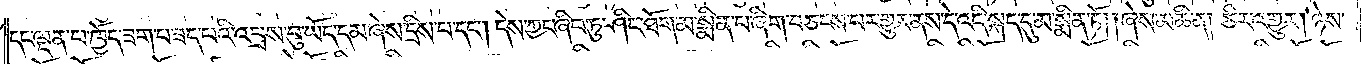དང་ལྡན་པ་ཁྱོད་ཟག་པ་ཟད་པའི་འབྲས་བུ་ཡོད་དམ་ཞེས་དྲིས་པ་དང༌། དེས་ཀྱང་ཞིབ་ཏུ་ཤིང་ཐོག་མ་སྨིན་པ་ཞིག་བཅངས་པར་གྱུར་ནས་དེ་འདི་སྐད་དུ་མ་སྨིན་ཏོ། །ཞེས་མཆི་ན། ཅིར་འགྱུར། ཉེས་
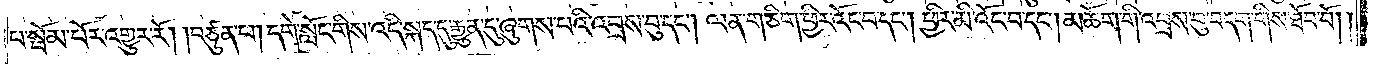པ་སྦོམ་པོར་འགྱུར་རོ། །བཙུན་པ། དགེ་སློང་གིས་འདི་སྐད་དུ་རྒྱུན་དུ་ཞུགས་པའི་འབྲས་བུ་དང༌། ལན་གཅིག་ཕྱིར་འོང་བ་དང༌། ཕྱིར་མི་འོང་བ་དང༌། མཆོག་གི་འབྲས་བུ་བདག་གིས་ཐོབ་བོ། །
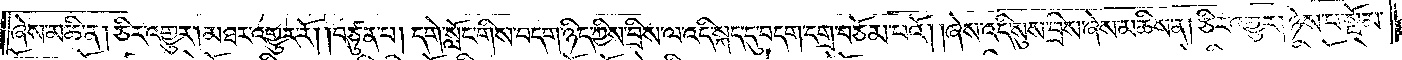ཞེས་མཆི་ན། ཅིར་འགྱུར། མཐར་འགྱུར་རོ། །བཙུན་པ། དགེ་སློང་གིས་བདག་ཉིད་ཀྱིས་བྲིས་ལ་འདི་སྐད་དུ་བདག་དགྲ་བཅོམ་པའོ། །ཞེས་འདི་སུས་བྲིས་ཞེས་མཆིས་ན། ཅིར་འགྱུར། ཉེས་པ་སྦོམ་
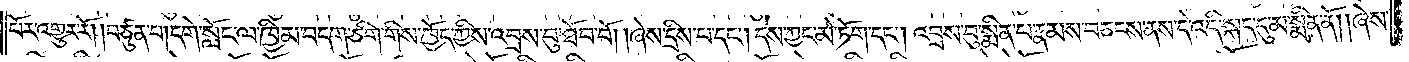པོར་འགྱུར་རོ། །བཙུན་པ། དགེ་སློང་ལ་ཁྱིམ་བདག་ཅིག་གིས་ཁྱོད་ཀྱིས་འབྲས་བུ་ཐོབ་བོ། །ཞེས་དྲིས་པ་དང༌། དེས་ཀྱང་མེ་ཏོག་དང༌། འབྲས་བུ་སྨིན་པ་རྣམས་བཅངས་ནས་དེ་འདི་སྐད་དུ་མ་སྨིན་ནོ། །ཞེས་
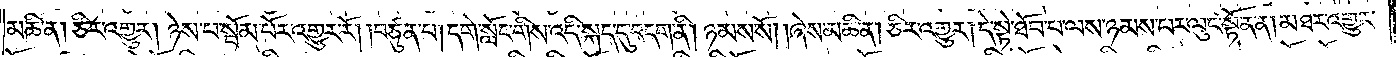མཆི་ན། ཅིར་འགྱུར། ཉེས་པ་སྦོམ་པོར་འགྱུར་རོ། །བཙུན་པ། དགེ་སློང་གིས་འདི་སྐད་དུ་བདག་ནི། ཉམས་སོ། །ཞེས་མཆི་ན། ཅིར་འགྱུར། དེ་སྟེ་ཐོབ་པ་ལས་ཉམས་པར་ལུང་སྟོན་ན། མཐར་འགྱུར་
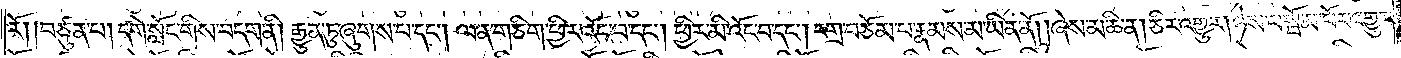རོ། །བཙུན་པ། དགེ་སློང་གིས་བདག་ནི། རྒྱུན་ཏུ་ཞུགས་པ་དང༌། ལན་གཅིག་ཕྱིར་འོང་བ་དང༌། ཕྱིར་མི་འོང་བ་དང༌། དགྲ་བཅོམ་པ་རྣམས་མ་ཡིན་ནོ། །ཞེས་མཆི་ན། ཅིར་འགྱུར། ཉེས་པ་སྦོམ་པོར་འགྱུར་
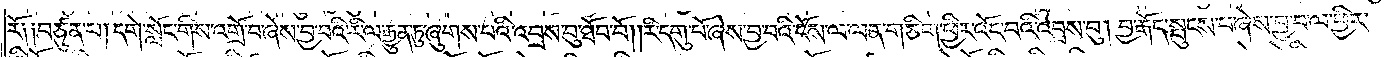རོ༑ ༑བཙུན་པ། དགེ་སློང་གིས་འགྲོ་བ་ཞེས་བྱ་བའི་རི་ལ་རྒྱུན་ཏུ་ཞུགས་པའི་འབྲས་བུ་ཐོབ་བོ། །རི་དགུ་པོ་ཞེས་བྱ་བའི་ངོས་ལ་ལན་གཅིག་ཕྱིར་འོང་བའི་འབྲས་བུ། བྱ་རྒོད་སྤུངས་པ་ཞེས་བྱ་བ་ལ་ཕྱིར་
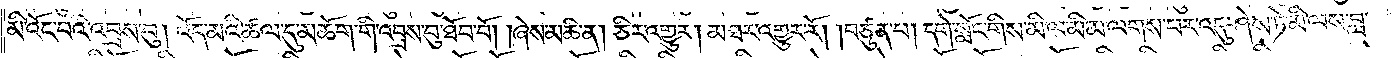མི་འོང་བའི་འབྲས་བུ། འོད་མའི་ཚལ་དུ་མཆོག་གི་འབྲས་བུ་ཐོབ་བོ། །ཞེས་མཆི་ན། ཅིར་འགྱུར། མཐར་འགྱུར་རོ། །བཙུན་པ། དགེ་སློང་གིས་མི་ལ་མི་མ་ལགས་པར་འདུ་ཤེས་ཏེ་མི་ལས་བླ་
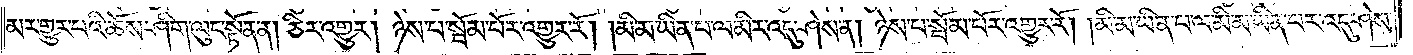མར་གྱུར་པའི་ཆོས་ཤིག་ལུང་སྟོན་ན། ཅིར་འགྱུར། ཉེས་པ་སྦོམ་པོར་འགྱུར་རོ། །མི་མ་ཡིན་པ་ལ་མིར་འདུ་ཤེས་ན། ཉེས་པ་སྦོམ་པོར་འགྱུར་རོ། །མི་མ་ཡིན་པ་ལ་མི་མ་ཡིན་པར་འདུ་ཤེས་
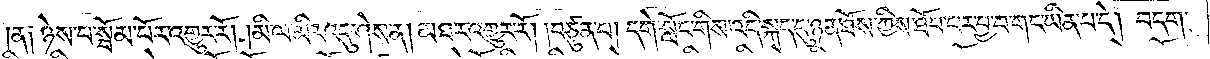།ན༑ ཉེས་པ་སྦོམ་པོར་འགྱུར་རོ། །མི་ལ་མིར་འདུ་ཤེས་ན། མཐར་འགྱུར་རོ། །བཙུན་པ། དགེ་སློང་གིས་འདི་སྐད་དུ་ཉན་ཐོས་ཀྱིས་ཐོབ་པར་བྱ་བ་གང་ཡིན་པ་དེ། བདག་
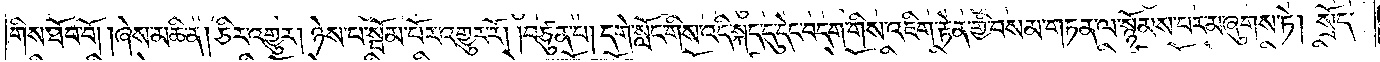གིས་ཐོབ་བོ། །ཞེས་མཆི་ན། ཅིར་འགྱུར། ཉེས་པ་སྦོམ་པོར་འགྱུར་རོ། །བཙུན་པ། དགེ་སློང་གིས་འདི་སྐད་དུ་དེང་བདག་གིས་འཇིག་རྟེན་གྱི་བསམ་གཏན་ལ་སྙོམས་པར་མ་ཞུགས་ཏེ། སྲོད་
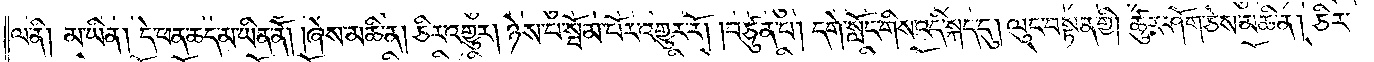ལ་ནི། མ་ཡིན། དེ་ཕན་ཆད་མ་ཡིན་ནོ། །ཞེས་མཆི་ན། ཅིར་འགྱུར། ཉེས་པ་སྦོམ་པོར་འགྱུར་རོ། །བཙུན་པ། དགེ་སློང་གིས་འདི་སྐད་དུ། ལུང་བསྟན་གྱི། ཚུར་ཤོག་ཅེས་མཆི་ན། ཅིར་
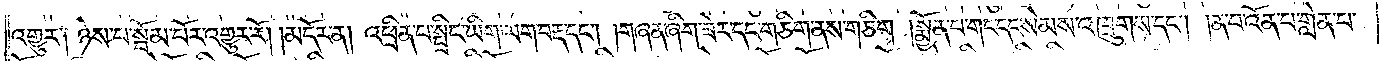འགྱུར༑ ཉེས་པ་སྦོམ་པོར་འགྱུར་རོ། །མདོར་ན། འཕྲིན་པ་སྤྲིང་ཡིག་ལག་བརྡ་དང༌། །གཞན་ཞིག་ཟེར་དང་གཅིག་ནས་གཅིག །སྨྱོན་པ་གང་དང་སེམས་འཁྲུགས་དང༌། །ན་བ་འོན་པ་གླེན་པ་
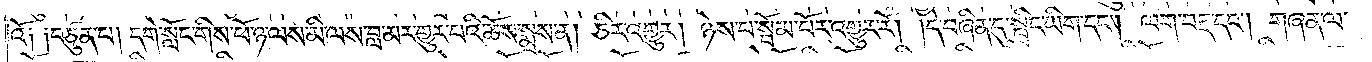འོ༑ ༑བཙུན་པ། དགེ་སློང་གིས་ཕོ་ཉ་ལས་མི་ལས་བླ་མར་གྱུར་པའི་ཆོས་སྨྲས་ན། ཅིར་འགྱུར། ཉེས་པ་སྦོམ་པོར་འགྱུར་རོ། །དེ་བཞིན་དུ་སྤྲིང་ཡིག་དང༌། ལག་བརྡ་དང༌། གཞན་ལ་
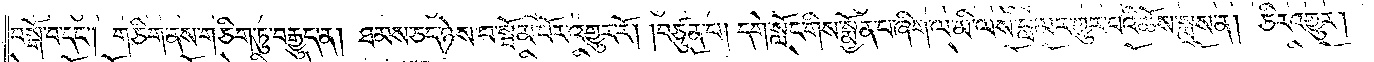བསྒོ་བ་དང༌། གཅིག་ནས་གཅིག་ཏུ་བརྒྱུད་ན། ཐམས་ཅད་ཉེས་པ་སྦོམ་པོར་འགྱུར་རོ། །བཙུན་པ། དགེ་སློང་གིས་སྨྱོན་པ་ཞིག་ལ་མི་ལས་བླ་མར་གྱུར་པའི་ཆོས་སྨྲས་ནས། ཅིར་འགྱུར།
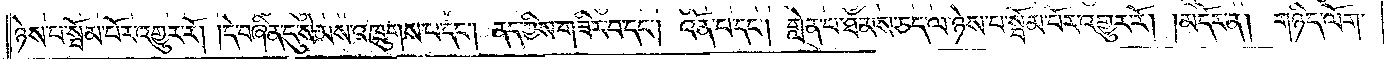ཉེས་པ་སྦོམ་པོར་འགྱུར་རོ། །དེ་བཞིན་དུ་སེམས་འཁྲུགས་པ་དང༌། ནད་ཀྱིས་གཟིར་བ་དང༌། འོན་པ་དང༌། གླེན་པ་ཐམས་ཅད་ལ་ཉེས་པ་སྦོམ་པོར་འགྱུར་རོ། །མདོར་ན། གཉིད་ལོག་
